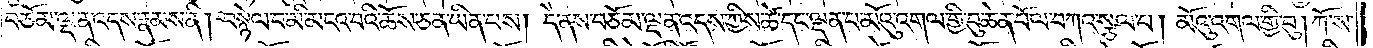བཅོམ་ལྡན་འདས་རྣམས་ནི། བསྙེལ་བ་མི་མངའ་བའི་ཆོས་ཅན་ཡིན་པས། དེ་ནས་བཅོམ་ལྡན་འདས་ཀྱིས་ཚེ་དང་ལྡན་པ་མོའུ་འགལ་གྱི་བུ་ཆེན་པོ་ལ་བཀའ་སྩལ་པ། མོའུ་འགལ་གྱི་བུ། ཀོ་ས་
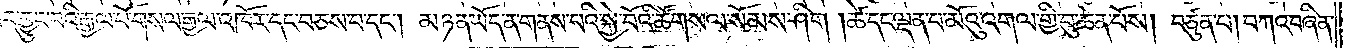ལར་བྱུང་བའི་རྒྱལ་པོ་གསལ་རྒྱལ་འཁོར་དང་བཅས་པ་དང༌། མཉན་ཡོད་ན་གནས་པའི་སྐྱེ་བོའི་ཚོགས་ལ་སོམས་ཤིག །ཚེ་དང་ལྡན་པ་མོའུ་འགལ་གྱི་བུ་ཆེན་པོས། བཙུན་པ། བཀའ་བཞིན་
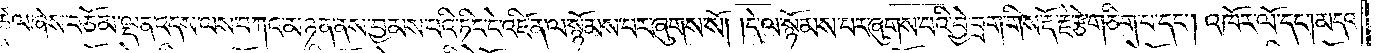འཚལ་ཞེས་བཅོམ་ལྡན་འདས་ལས་བཀའ་མཉན་ནས་བྱམས་པའི་ཏིང་ངེ་འཛིན་ལ་སྙོམས་པར་ཞུགས་སོ། །དེ་ལ་སྙོམས་པར་ཞུགས་པའི་བྱེ་བྲག་གིས་རྡོ་རྗེ་རྩེ་གཅིག་པ་དང༌། འཁོར་ལོ་དང༌། མདའ་
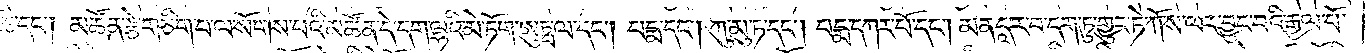ཆེ་དང༌། མཚོན་རྩེ་གཅིག་པ་ལ་སོགས་པའི་མཚོན་དེ་དག་ལྷའི་མེ་ཏོག་ཨུཏྤ་ལ་དང༌། པདྨ་དང༌། ཀུ་མུ་ཏ་དང༌། པདྨ་དཀར་པོ་དང༌། མན་དཱ་ར་བ་དག་ཏུ་གྱུར་ཏེ་ཀོ་ས་ལར་བྱུང་བའི་རྒྱལ་པོ་
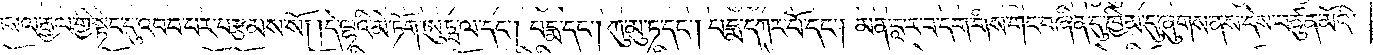གསལ་རྒྱལ་གྱི་སྟེང་དུ་འབབ་པར་བརྩམས་སོ། །དེ་ལྷའི་མེ་ཏོག་ཨུཏྤ་ལ་དང༌། པདྨ་དང༌། ཀུ་མུ་ཏ་དང༌། པདྨ་དཀར་པོ་དང༌། མན་དཱ་ར་བ་དག་གིས་གང་བཞིན་དུ་ཁྱིམ་དུ་ཞུགས་ནས་དེས་བཙུན་མོའི་
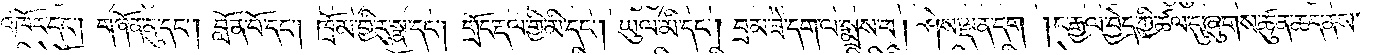འཁོར་དང༌། གཞོན་ནུ་དང༌། བློན་པོ་དང༌། ཁྲོམ་གྱི་རུ་སྣ་དང༌། གྲོང་རྡལ་གྱི་མི་དང༌། ཡུལ་མི་དང༌། བྲམ་ཟེ་དག་ལ་སྨྲས་པ། ཤེས་ལྡན་དག །ང་རྒྱལ་བྱེད་ཀྱི་ཚལ་དུ་ཞུགས་ཚུན་ཆད་ནས་
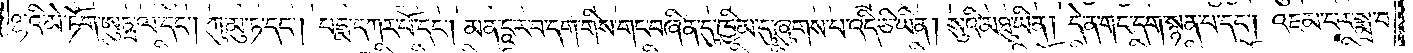ལྷའི་མེ་ཏོག་ཨུཏྤ་ལ་དང༌། ཀུ་མུ་ཏ་དང༌། པདྨ་དཀར་པོ་དང༌། མན་དཱ་ར་བ་དག་གིས་གང་བཞིན་དུ་ཁྱིམ་དུ་ཞུགས་པ་འདི་ཅི་ཡིན། སུའི་མཐུ་ཡིན། དེ་ན་གང་དག་སྙན་པ་དང༌། འཇམ་པར་སྨྲ་བ་
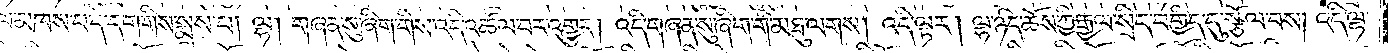ལ་མཁས་པ་དེ་དག་གིས་སྨྲས་པ། ལྷ། གཞན་སུ་ཞིག་གིས་འདི་འཚལ་བར་འགྱུར། འདི་གཞན་སུ་ཞིག་གི་མཐུ་ལགས། འདི་ལྟར། ལྷ་ཉིད་ཆོས་ཀྱི་རྒྱལ་སྲིད་བགྱིད་དུ་སྩོལ་བས། འདི་ལྷ་
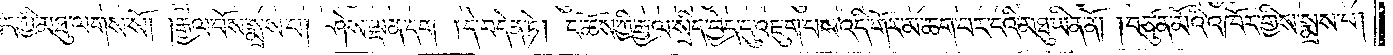ཉིད་ཀྱི་མཐུ་ལགས་སོ། །རྒྱལ་པོས་སྨྲས་པ། ཤེས་ལྡན་དག །དེ་བདེན་ཏེ། ང་ཆོས་ཀྱི་རྒྱལ་སྲིད་བྱེད་དུ་འཇུག་པས་འདི་གོར་མ་ཆག་པར་ངའི་མཐུ་ཡིན་ནོ། །བཙུན་མོའི་འཁོར་གྱིས་སྨྲས་པ།
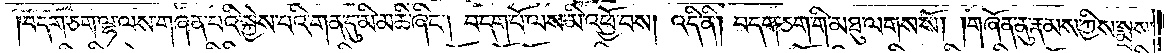བདག་ཅག་ལྷ་ལས་གཞན་པའི་སྐྱེས་པའི་གན་དུ་མི་མཆི་ཞིང༌། བདག་པོ་ལས་མི་འཕྱོ་བས། འདི་ནི། བདག་ཅག་གི་མཐུ་ལགས་སོ། །གཞོན་ནུ་རྣམས་ཀྱིས་སྨྲས་
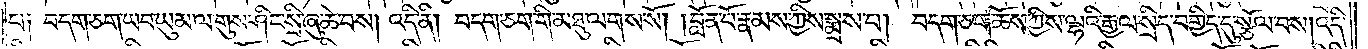པ༑ བདག་ཅག་ཡབ་ཡུམ་ལ་གུས་ཤིང་སྲི་ཞུ་ཆེ་བས། འདི་ནི། བདག་ཅག་གི་མཐུ་ལགས་སོ། །བློན་པོ་རྣམས་ཀྱིས་སྨྲས་པ། བདག་ཅག་ཆོས་ཀྱིས་ལྷའི་རྒྱལ་སྲིད་བགྱིད་དུ་སྩོལ་བས། འདི་
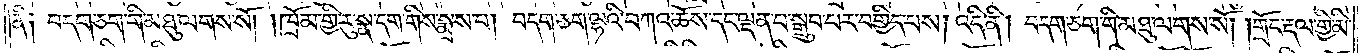ནི༑ བདག་ཅག་གི་མཐུ་ལགས་སོ། །ཁྲོམ་གྱི་རུ་སྣ་དག་གིས་སྨྲས་པ། བདག་ཅག་ལྷའི་བཀའ་ཆོས་དང་ལྡན་པ་སྒྲུབ་པར་བགྱིད་པས། འདི་ནི། བདག་ཅག་གི་མཐུ་ལགས་སོ། །གྲོང་རྡལ་གྱི་མི་
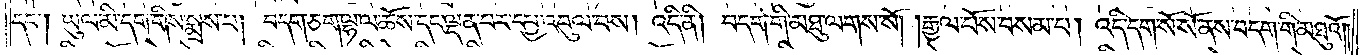དང༌། ཡུལ་མི་དག་གིས་སྨྲས་པ། བདག་ཅག་ལྷ་ལ་ཆོས་དང་ལྡན་པར་དཔྱ་འབུལ་བས། འདི་ནི། བདག་གི་མཐུ་ལགས་སོ། །རྒྱལ་པོས་བསམ་པ། འདི་དག་སོ་སོ་ནས་བདག་གི་མཐུའོ༎
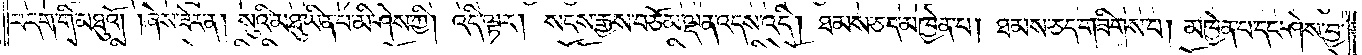བདག་གི་མཐུའོ། །ཞེས་ཟེར་ན། སུའི་མཐུ་ཡིན་པ་མི་ཤེས་ཀྱི། འདི་ལྟར། སངས་རྒྱས་བཅོམ་ལྡན་འདས་འདི། ཐམས་ཅད་མཁྱེན་པ། ཐམས་ཅད་གཟིགས་པ། མཁྱེན་པ་དང་ཤེས་བྱ་
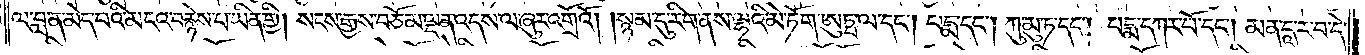ལ་བླ་ན་མེད་པའི་མངའ་བརྙེས་པ་ཡིན་གྱི། སངས་རྒྱས་བཅོམ་ལྡན་འདས་ལ་ཞུར་འགྲོའོ། །སྙམ་དུ་རིག་ནས་ལྷའི་མེ་ཏོག་ཨུཏྤ་ལ་དང༌། པདྨ་དང༌། ཀུ་མུ་ཏ་དང༌། པདྨ་དཀར་པོ་དང༌། མན་དཱ་ར་བ་དེ་
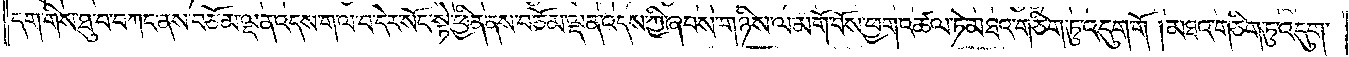དག་གིས་ཐུ་བ་བཀང་ནས་བཅོམ་ལྡན་འདས་ག་ལ་བ་དེར་སོང་སྟེ་ཕྱིན་ནས་བཅོམ་ལྡན་འདས་ཀྱི་ཞབས་གཉིས་ལ་མགོ་བོས་ཕྱག་འཚལ་ཏེ་མཐའ་གཅིག་ཏུ་འདུག་གོ །མཐའ་གཅིག་ཏུ་འདུག་
